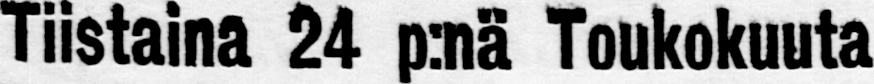Tiistaina 24 p:nä Toukokuuta
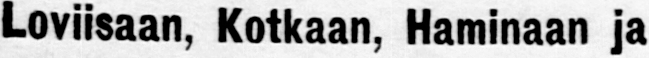Loviisaan, Kotkaan, Haminaan ja
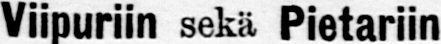Viipuriin sekä Pietariin
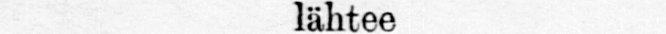lähtee
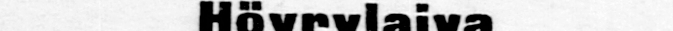Höyrylaiva
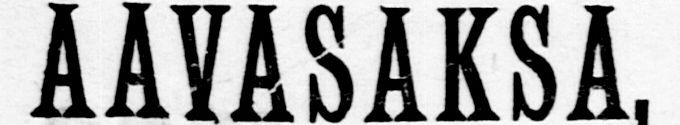AAVASAKSA,
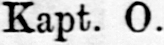Kapt. O. Tornberg,
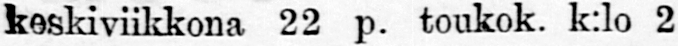keskiviikona 22 p. toukok, K:lo 2
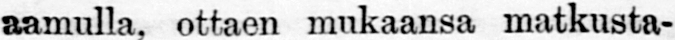ammulla, ottaen mukaansa matkusta-
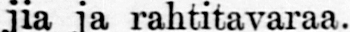jia ja rahtitavaraa.
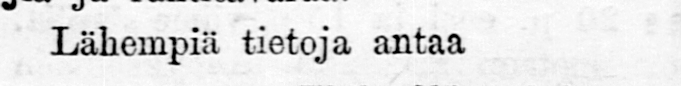Lähempiä tietoja antaa
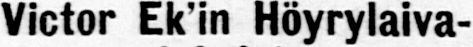Victor Ek’in Höyrylaiva-
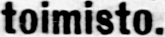toimisto.
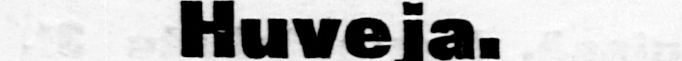Huveja.
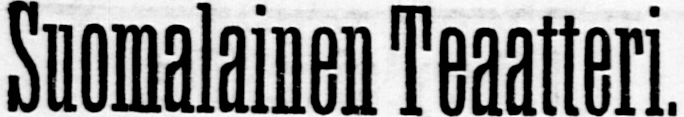Suomalainen Teaatteri.
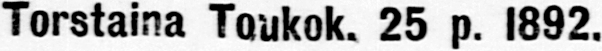Torstaina Toukok. 25 p. 1892.
